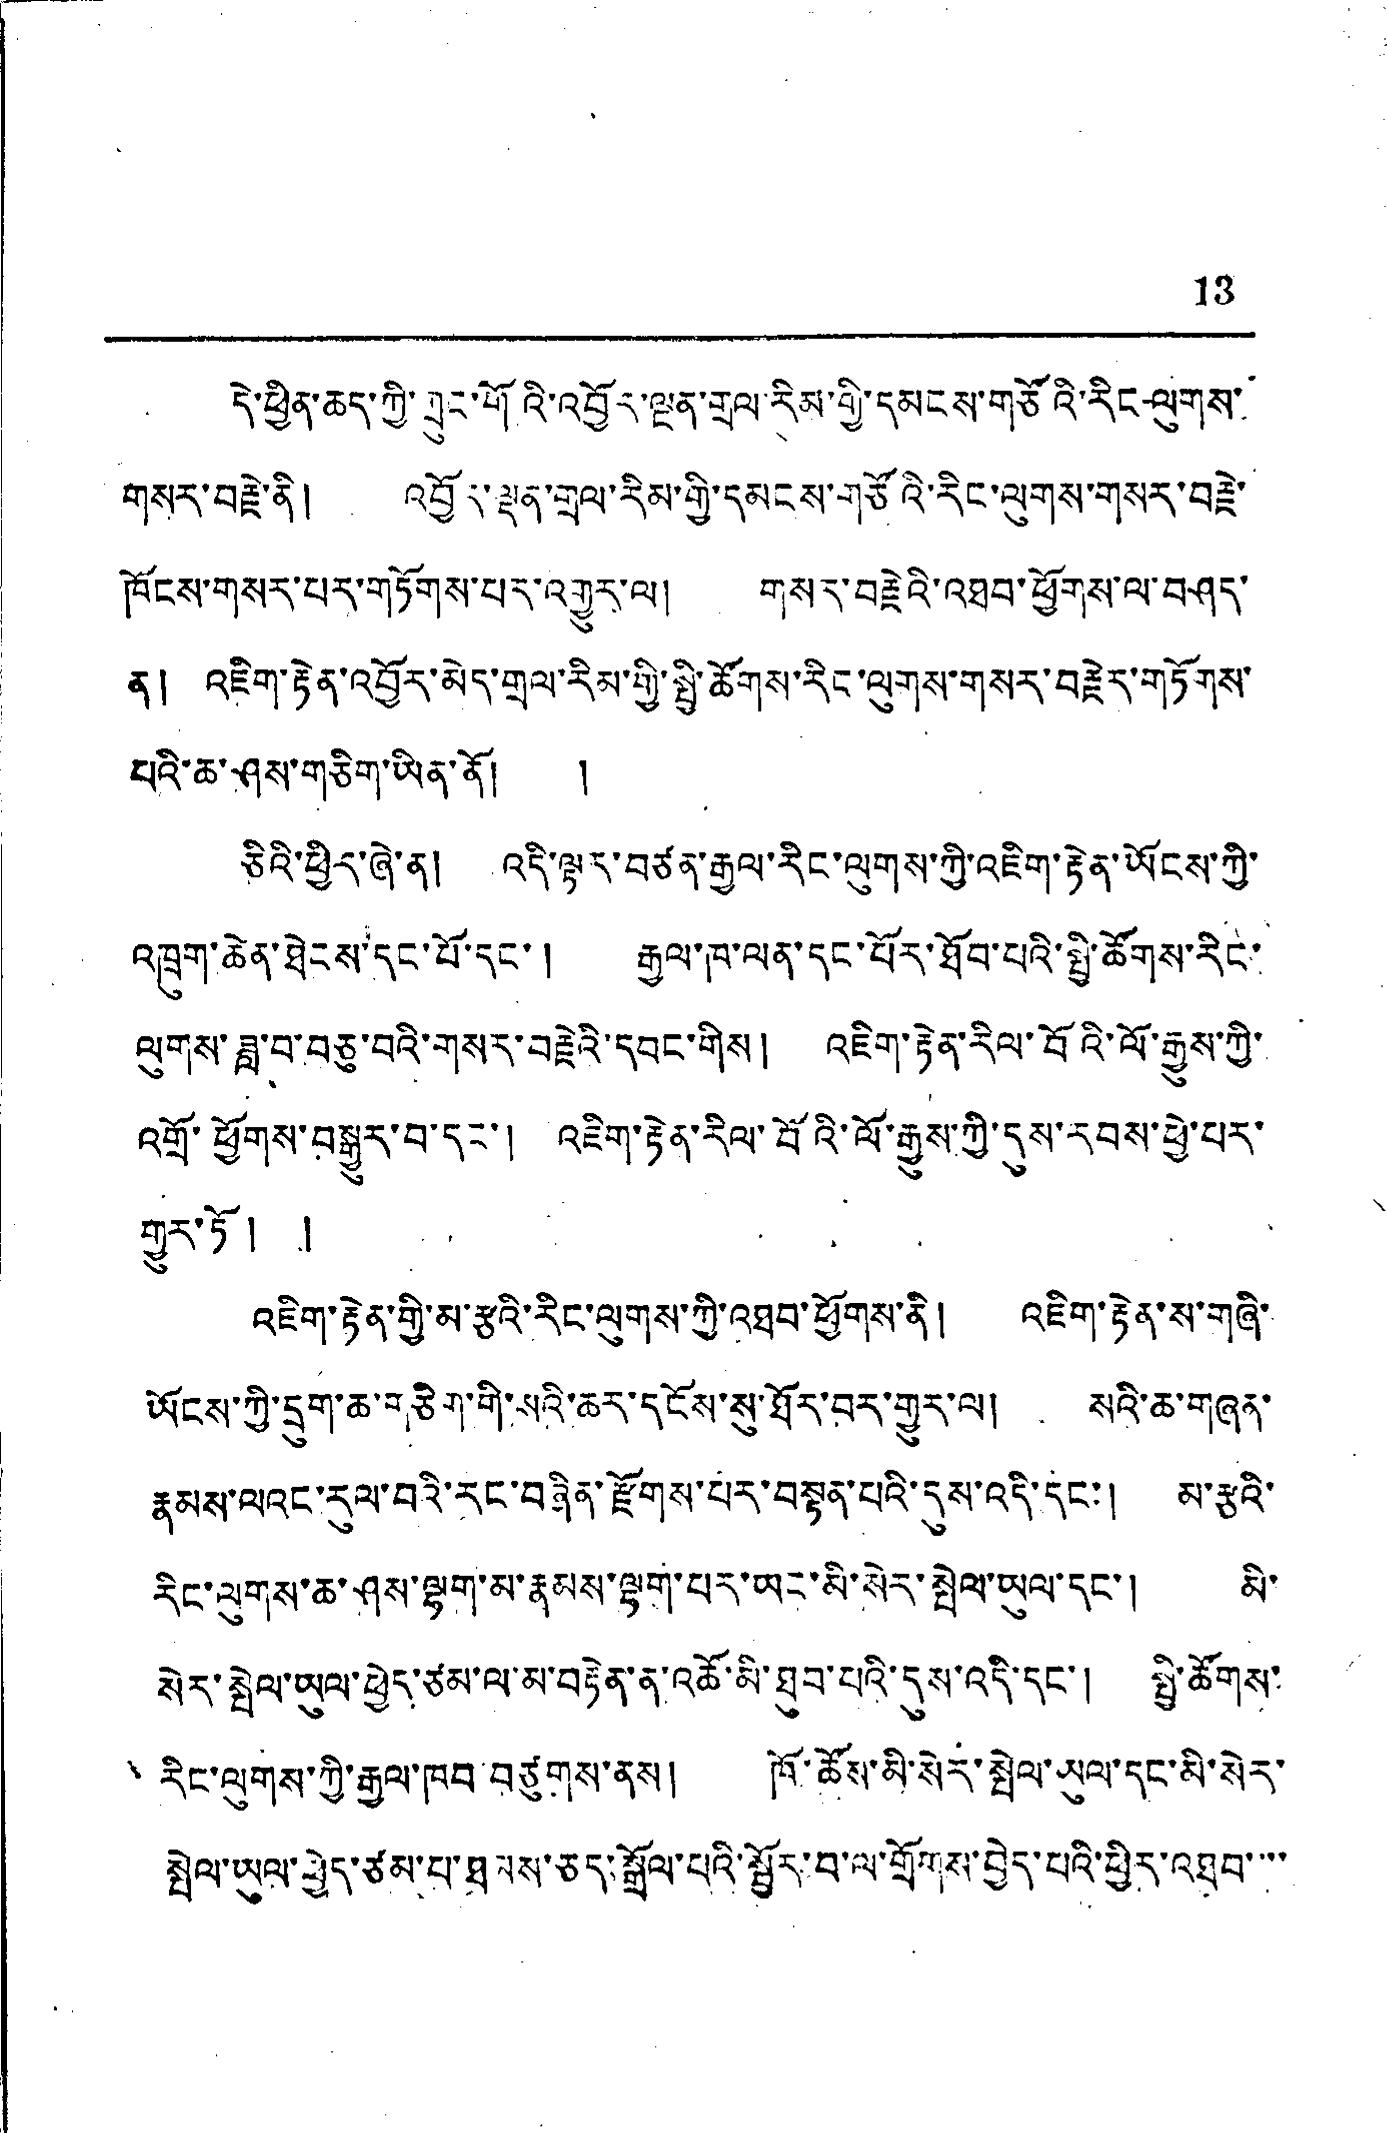13
དེ་ཕྱིན་ཆད་ཀྱི་ཀྲུང་གོའི་འབྱོར་ལྔན་གྲལ་རིམ་གྱི་དམངས་གཙོའི་རིང་ལུགས་
གསར་བརྗེ་ནི། འབྱོར་ལྡན་གྲལ་རིམ་གྱི་དམངས་གཙོའི་རིང་ལུགས་གསར་བརྗེ་
ཁོངས་གསར་པར་གཏོགས་པར་འགྱུར་ལ། གསར་བརྗེའི་འཐབ་ཕྱོགས་ལ་བཤད་
ན། འཇིག་རྟེན་འབྱོར་མེད་གྲལ་རིམ་གྱི་སྤྱི་ཚོགས་རིང་ལུགས་གསར་བརྗེར་གཏོགས་
པིའ་ཆ་ཤས་གཅིག་ཡིན་ནོ། །
ཅིའི་ཕྱིར་ཞེ་ན། འདི་ལྟར་བཙན་རྒྱལ་རིང་ལུགས་ཀྱི་འཇིག་རྟེན་ཡོངས་ཀྱི་
འཁྲུག་ཆེན་ཐེངས་དང་པོ་དང་། རྒྱལ་ཁ་ལན་དང་པོར་ཐོབ་པའི་སྤྱི་ཚོགས་རིང་
ལུགས་ཟླ་བ་བཅུ་བའི་གསར་བརྗེའི་དབང་གིས། འཇིག་རྟེན་རིལ་བོའི་ལོ་རྒྱུས་ཀྱི་
འགྲོ་ཕྱོགས་བསྒྱུར་བ་དང་། འཇིག་རྟེན་རིལ་བོའི་ལོ་རྒྱུས་ཀྱི་དུས་རབས་ཕྱེ་པར་
གྱུར་ཏོ། །
འཇིག་རྟེན་གྱི་མ་རྩའི་རིང་ལུགས་ཀྱི་འཐབ་ཕྱོགས་ནི། འཇིག་རྟེན་ས་གཞི་
ཡོངས་ཀྱི་དྲུག་ཆ་གཅིག་གི་སའི་ཆར་དངོས་སུ་ཐོར་བར་གྱུར་ལ། སའི་ཆ་གཞན་
རྣམས་ལའང་རུལ་བའི་རང་བཞིན་རྫོགས་པར་བསྟན་པའི་དུས་འདི་དང་། མ་རྩའི་
རིང་ལུགས་ཆ་ཤས་ལྷག་མ་རྣམས་ལྷག་པར་ཡནག་མི་སེར་སྤེལ་ཡུལ་དང་། མི་
སེར་སྤེལ་ཡུལ་ཕྱེད་ཙམ་ལ་མ་བརྟེན་ན་འཚོ་མི་ཐུབ་པའི་དུས་འདི་དང་། སྤྱི་ཚོགས་
རིང་ལུགས་ཀྱི་རྒྱལ་ཁབ་བཙུགས་ནས། ཁོ་ཚོས་མི་སེར་སྤེལ་ཡུལ་དང་མི་སེར་
སྤེལ་ཡུལ་ཕྱེད་ཙམ་པ་ཐམས་ཅད་སྒྲོལ་པའི་སྦྱོར་བ་ལ་གྲོགས་བྱེད་པའི་ཕྱིར་འཐབ་་་་
